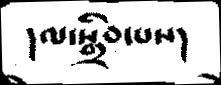།ལ་སྒྲིབ་པས།
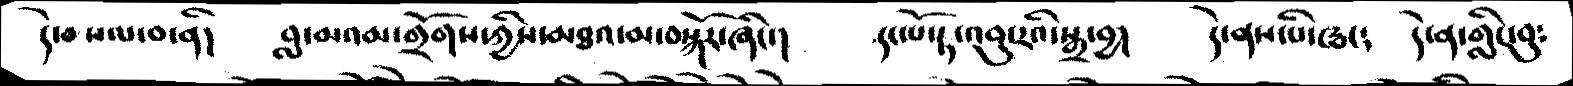དེ་བསལ་བ་ནི།   བླ་མའམ་གྲོགས་ཀྱིས་མཐའ་མ་བསྐོར་ཞིང་།   དང་པོ་རྟ་འབུ་རའི་སྒྲ་བྱ།  དེ་ནས་པི་ཝང༴  དེ་ན་གླིང་བུ༴
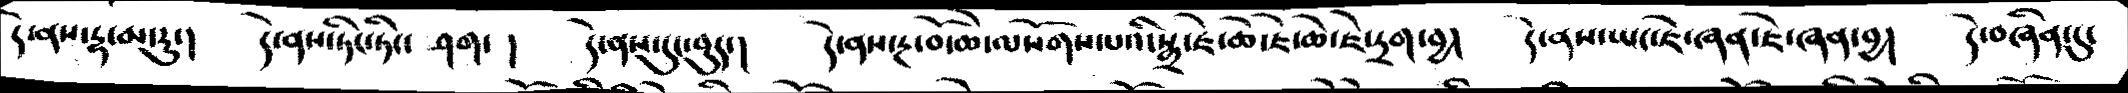དེ་ནས་དྷ་མ་རུ་།   དེ་ནས་ཏིང་ཏིང་  ཤག་ །  དེ་ནས་དུང་བུད་།  དེ་ནས་རྔ་བོ་ཆེ་ལསོགས་པའི་སྒྲ་ཇེ་ཆེ་ཇེ་ཆེ་ཇེ་དྲག་བྱ།  དེ་ནས་ཡང་ཇེ་ཞན་ཇེ་ཞན་བྱ།   དེ་བཞིན་དུ་
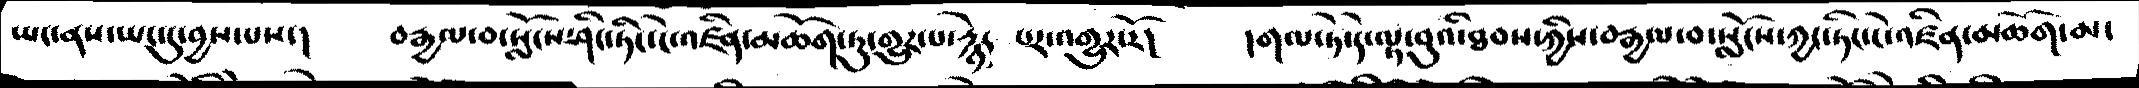ཡང་ནས་ཡང་དུ་བྱས་པས་།   བརྒྱལ་བ་སློངས་ཤིང་ཏིང་ངེ་འཛིན་མཆོག་ཏུ་གྱུར་པ་རྙེད་པར་འགྱུར་རོ།   །གལ་ཏེ་དེ་ལྟ་བུའི་ཐབས་ཀྱིས་བརྒྱལ་བ་སློངས་ཀྱང་ཏིང་ངེ་འཛིན་མཆོག་མ་
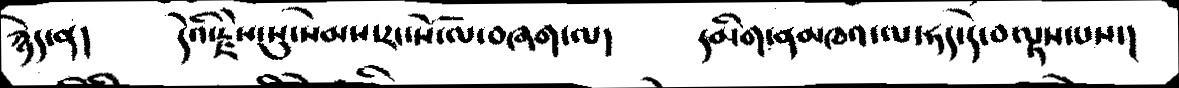རྙེད་ན།   དེའི་རྗེས་སུ་སེམས་རང་སོ་ལ་བཞག་ལ།   དམིག་ནམཁའ་ལ་ཧད་དེ་བལྟས་པས་།
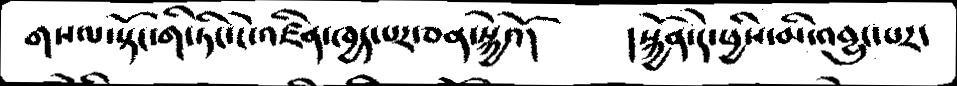གསལ་སྟོང་གི་ཏིང་ངེ་འཛིན་ཁྱད་པར་ཅན་སྐྱེའོ།    །སྐྱོན་དེ་ཕྱིས་མི་འབྱུང་པར་
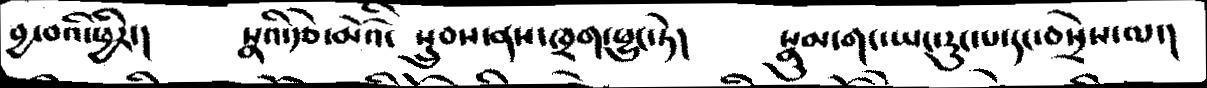བྱ་བའི་ཕྱིར་།   སྣའི་རྩེ་མོའི་སྲུབས་ནས་ཁྲག་ཕྱུང་ཏེ།   སྣུམ་གང་ཡང་རུང་པ་དང་བསྲེས་ལ་།
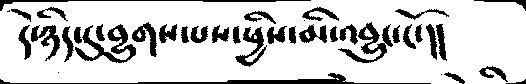དེ་ཉིད་དུ་བྱུགས་པས་ཕྱིས་མི་འབྱུང་ངོ་།།
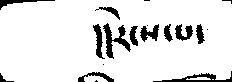།།རེངས་པ་
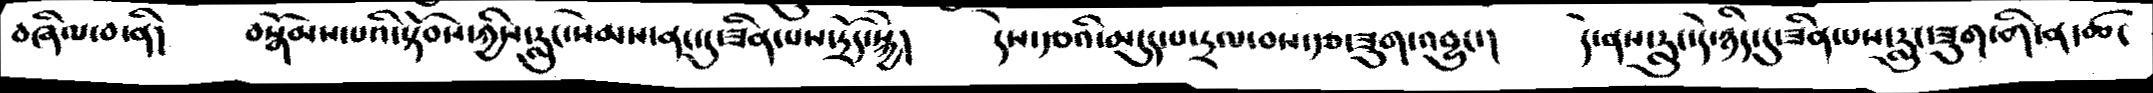བཞིལ་བ་ནི།   བསྒོམས་པའི་སྟོབས་ཀྱིས་རླུང་སེམས་ནང་དུ་ཟིན་པས་དྲོད་སྐྱེ།   དེས་རྩའི་མདུད་པ་དྲལ་བས་རྩ་ཟུག་འབྱུང་།   དེ་ནས་རླུང་དེ་ཉིད་དུ་ཟིན་པས་རླུང་ཟུག་གི་ན་ཚ་
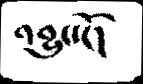འབྱུང་ངོ།
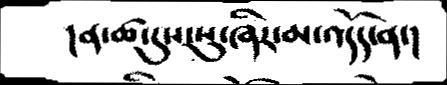།ན་ཚ་དུས་སུ་ཞིར་མ་འདོད་ན་།
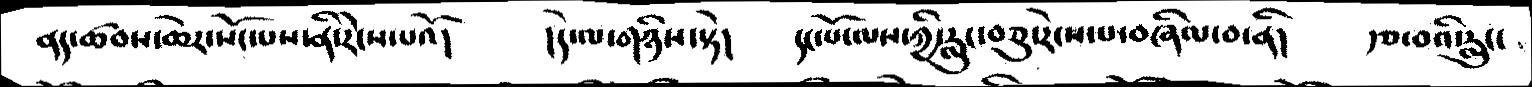ནད་ཚབས་ཆེར་སོང་པས་ནི་རེངས་པའོ།   །དེ་ལ་གཉིས་སྟེ།   དང་པོ་ལས་ཀྱི་རླུང་བཅུ་རེངས་པ་བཞིལ་བ་ནི།   རྩ་བའི་རླུང་
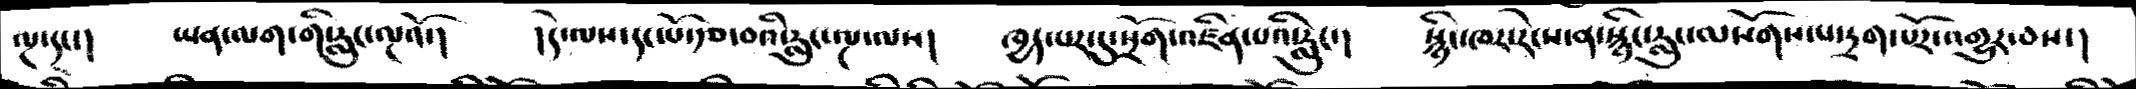ལྔ་དང་།   ཡན་ལག་གི་རླུང་ལྔའོ་།   །དེ་ལས་དང་པོ་རྩ་བའི་རླུང་ལྔ་ལས།   ཁྱད་པར་དུ་སྲོག་འཛིན་པའི་རླུང་།  སྙིང་ཁར་རེངས་ན་སྙིང་རླུང་ལསོགས་པ་དྲག་པོར་འགྱུར་བས་།
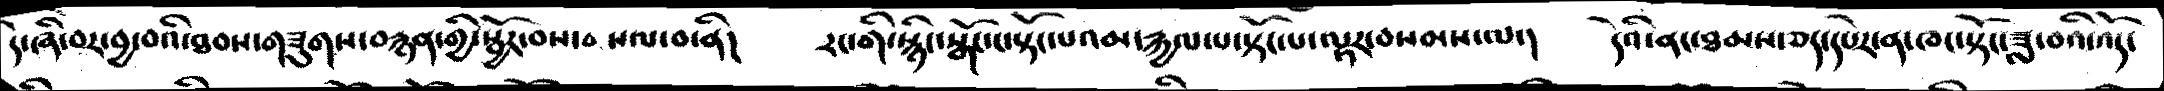དེ་ཞི་བར་བྱ་བའི་ཐབས་གཟུགས་བརྙན་གྱི་སྦྱོར་བས་བསལ་བ་ནི།  རང་གི་སྙིང་སྒོང་ང་སྟོང་པའམ་རྐྱལ་པ་སྟོང་པ་ལྟར་བསམས་ལ་།  དེའི་ནང་ཐམས་ཅད་དཔེར་ན་ཁང་སྟོང་ཟླ་བའི་འོད་
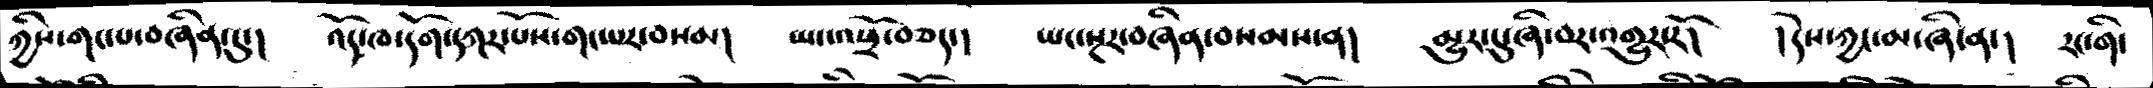ཀྱིས་གང་པ་བཞིན་དུ་།   འོད་ཁ་དོག་དཀར་པོས་གང་པར་བསམ།   ཡང་འཕྲོ་བཅད་།   ཡང་སྔར་བཞིན་བསམས་ན།   མྱུར་དུ་ཞི་བར་འགྱུར་རོ།   །དེས་ཀྱང་མ་ཞི་ན།   རང་གི་
